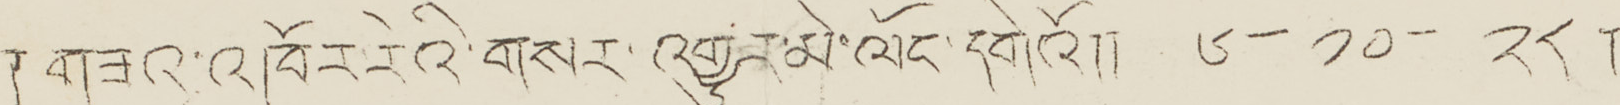༤ གཟའ་འཁོར་རེའི་གསར་འགྱུར་མེ་ལོང་དགེའོ།། ༦-༡༠-༢༨།
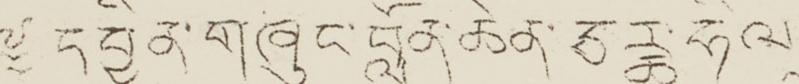༈ དབྱིན་གཞུང་བློན་ཆེན་ཅརྖ་ཧིལ
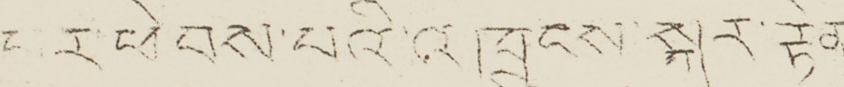པར་ཕེབས་པའི འཁྲུངས་སྐར་རྟེན་
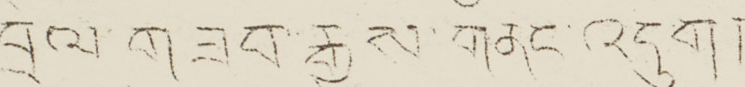འབྲེལ་གཟབ་རྒྱས་གནང་འདུག།།
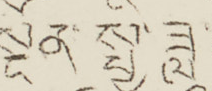ཉེ་སྔོན་སྤྱི་ཟླ་
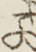༡༡
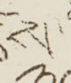ཚེས་
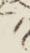༣༠
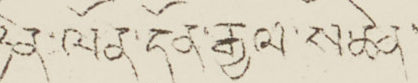ཉིན་ལོན་དོན་རྒྱལ་ས་ཆེན་
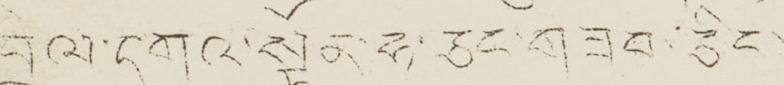འབྲེལ་དགའ་སྟོན་ཧ་ཅང་གཟབ་ཅིང་
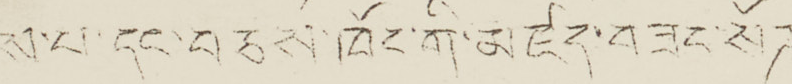ས་པ་དནག་བཅས་ཁོང་གི་མཛད་བཟང་སོཌ་
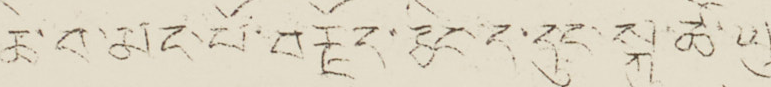རྒྱ་ཆེ་བ་མང་པོ་བརྗོད་ཅིང་ད་དུང་སྐུ་ཚེ་ཡུན་
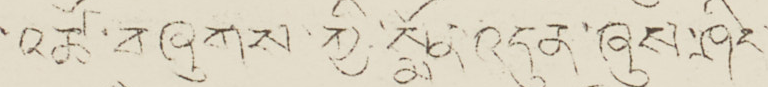རིང་འཚོ་བཞུགས་ཀྱི་སྨོན་འདུན་ཞུས་ཤིང་
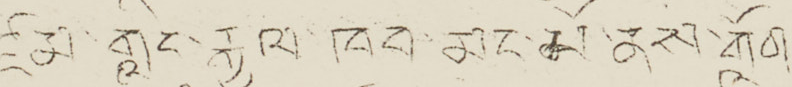འཛམ་གླིང་རྒྱལ་ཁབ་མང་པོ་ནས་གློག་
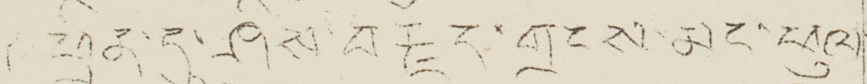འཕྲིན་དུ་ཤིས་བརྗོད་གྲངས་མང་ཕུལ་
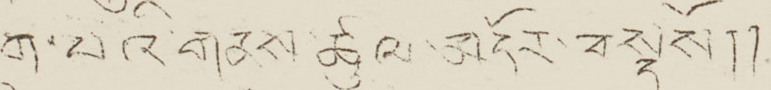འདུག་པའི་གནས་ཚུལ་མདོར་བསྡུསོ།།
